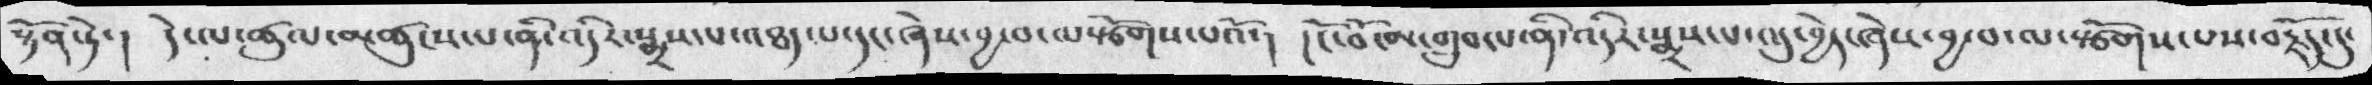སྟོན་ཏེ་། དེ་ལ་ཚུལ་མཚུངས་པ་ནི་འདིར་སྨྲས་པ་འཐད་པ་དང་ཞེས་བྱ་བ་ལསཙོགས་པའོ་།  ། ངོ་བོ་མ་གྲུབ་པ་ནི་འདིར་སྨྲས་པ་འདུ་བྱེད་ཞེས་བྱ་བ་ལ་སྩོགས་པས་བརྗོད་དུ་
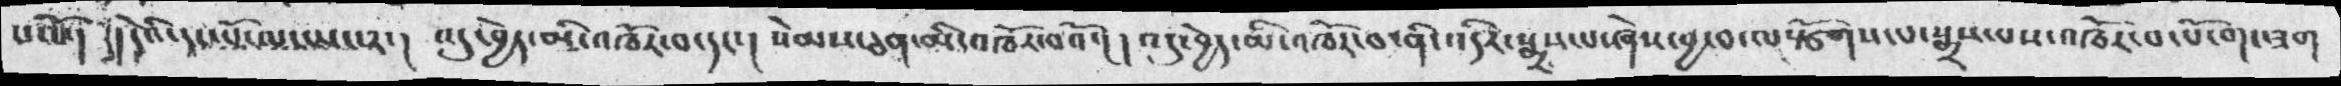པའོ་།  །དེའི་དང་པོ་ལ་ཡང་༢་།  འདུ་བྱེད་མི་འཁོར་བ་དང་།  སེམས་ཅན་མི་འཁོར་བའོ་། ། འདུ་བྱེད་མི་འཁོར་བ་ནི་འདིར་སྨྲས་པ་ཞེས་བྱ་བ་ལསྩོགས་པ་སྨྲས་པས་འཁོར་པ་པོ་གང་ཟག
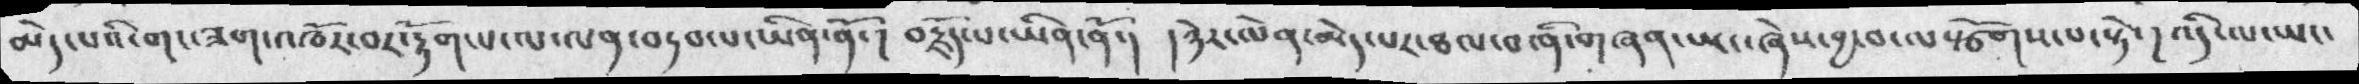མེད་པའི་གང་ཟག་འཁོར་བར་རྟོག་པ་ལ་ལན་བདབ་པ་ཡིན་ནོ་།  བརྗོད་པ་ཡིན་ནོ་།  ། ཉེར་ལེན་མེད་པར་ཐལ་བ་ནི་གཞན་ཡང་ཞེས་བྱ་བ་ལསྩོགས་པ་སྟེ་།  འདི་ལ་ཡང་
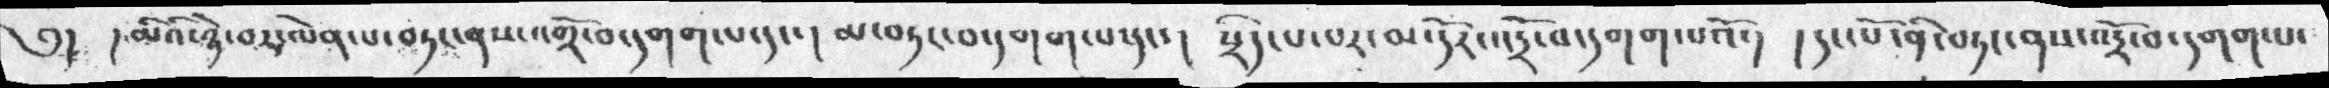༅།  །མིའི་ཉེ་བར་ལེན་པ་བཏང་ནས་འགྲོ་བ་དགག་པ་དང་། མ་བཏང་བ་དགག་པ་དང་། སྲིད་པ་པར་མ་དོར་འདྲོ་བ་དགག་པའོ་།  །དང་པོ་ནི་བཏང་ནས་འདྲོ་བ་དགག་པ་
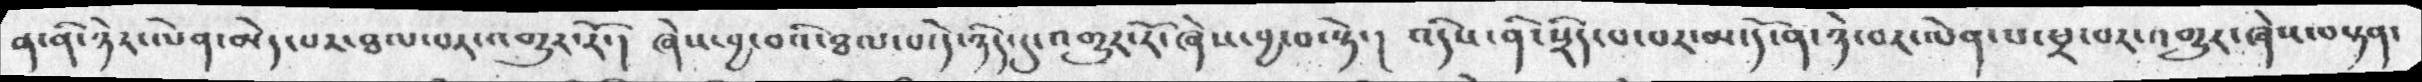ན་ནི་ཉེར་ལེན་མེད་པར་ཐལ་བར་འགྱུར་རོ་།  ཞེས་བྱ་བའི་ཐལ་པ་དེ་ཉིད་དུ་འགྱུར་རོ་ཞེས་བྱ་བ་སྟེ་།  འདིས་ནི་སྲིད་པ་པར་མ་དོ་ན་ཉེ་བར་ལེན་པ་ཕྲ་པར་འགྱུར་ཞེས་བསྟན་
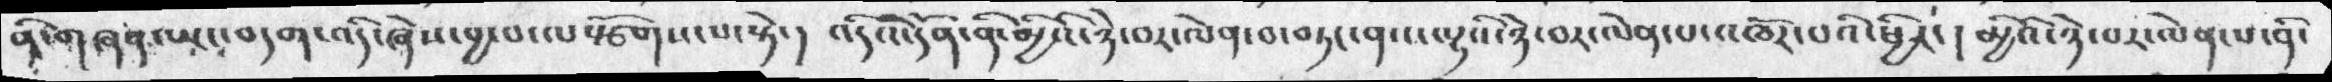ནི་གཞན་ཡང་བདག་འདི་ཞེས་བྱ་བ་ལསྩོགས་པ་སྟེ་།  འདིའི་དོན་ནི་མྱིའི་ཉེ་བར་ལེན་བ་བཏང་ནའ་ལྷའི་ཉེ་བར་ལེན་པ་འཁོར་པའི་ཕྱིར་། མྱིའི་ཉེ་བར་ལེན་པ་ནི་
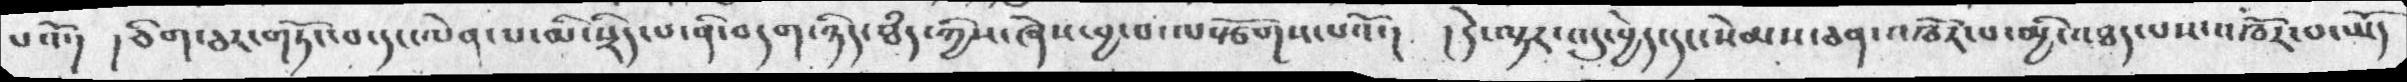པའོ་།  །ཅིག་ཅར་གཏོང་བ་དང་ལེན་པ་མི་སྲིད་པ་ནི་བདག་ཉིད་ཐཾད་ཀྱིས་ཞེས་བྱ་བ་ལསྩོགས་པའོ་།  །དེ་ལྟར་འདུ་བྱེད་དང་སེམས་ཅན་འཁོར་པ་མྱི་འཐད་པས་འཁོར་པ་ཡོད
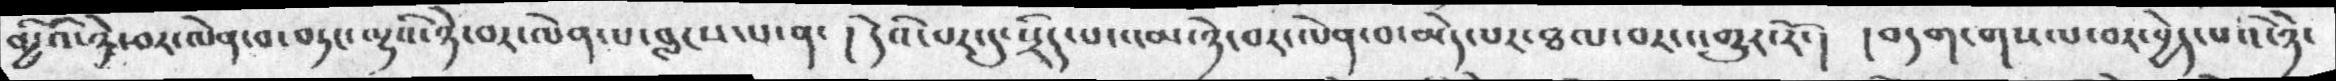མྱིའི་ཉེ་བར་ལེན་པ་བཏང་ལྷའི་ཉེ་བར་ལེན་པ་བླངས་པ་ན་།  དེའི་པར་དུ་སྲིད་པ་འམ་ཉེ་བར་ལེན་པ་མེད་པར་ཐལ་བར་འགྱུར་རོ་།  །བདག་གསལ་བར་བྱེད་པའི་ཉེ་
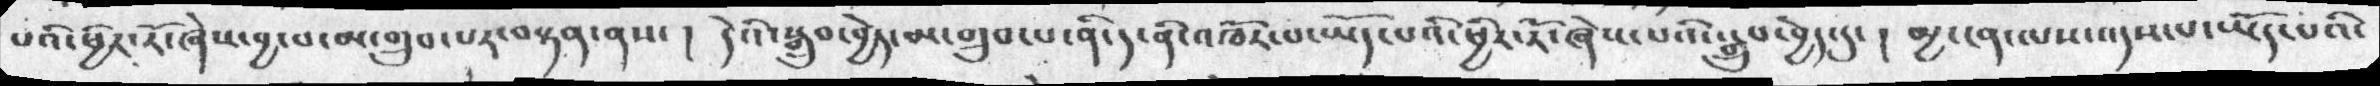པའི་ཕྱིར་རོ་ཞེས་བྱ་པ་མ་གྲུབ་པར་བསྟན་ནས་ ། དེའི་སྒྲུབ་བྱེད་མ་གྲུབ་པ་ནི་ད་ནི་འཁོར་པ་ཡོད་པའི་ཕྱིར་རོ་ཞེས་པའི་སྒྲུབ་བྱེད་དུ་ ། མྱ་ངན་ལས་འདས་པ་ཡོད་པའི་
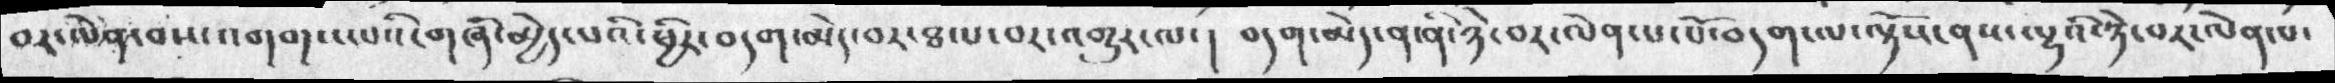བར་ལེན་བས་འགག་པའི་གཞི་མྱེད་པའི་ཕྱིར་བདག་མེད་བར་ཐལ་བར་འགྱུར་ལ་ ། བདག་མེད་ན་ནི་ཉེ་བར་ལེན་པ་པོ་བདག་ལ་ལྟོས་ནས་ལྷའི་ཉེ་བར་ལེན་པ་
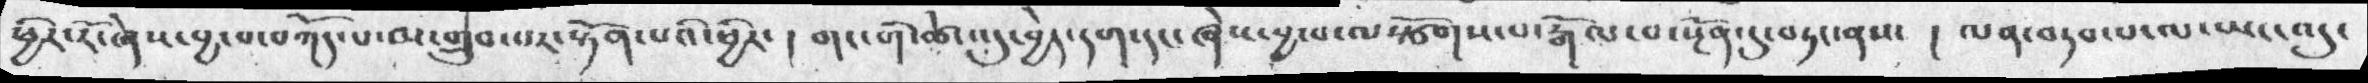ཕྱི་རོ་ཞེས་བྱ་བ་བཀོད་པ་མ་གྲུབ་པར་སྟོན་པའི་ཕྱིར་  ། གང་གི་ཚེ་འདུ་བྱེད་དག་དང་ཞེས་བྱ་བ་ལསྩོགས་པ་རྒོལ་བ་སྔོན་དུ་བཏང་ནས་   ། ལན་བཏབ་པ་ལ་ཡང་འདུ་
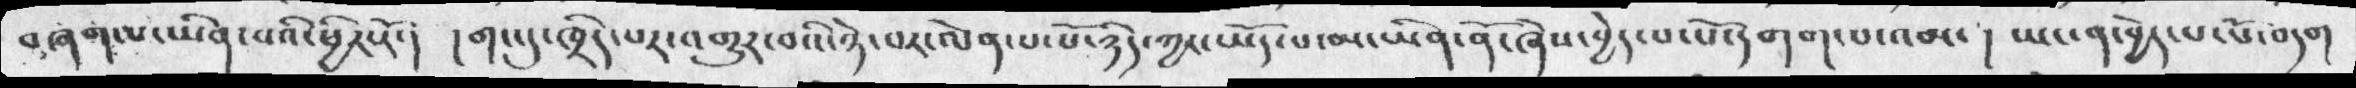བཞག་པ་ཡིན་པའི་ཕྱིར་རོ་།    །གང་དུ་ཁྲིད་པར་འགྱུར་བའི་ཉེས་བར་ལེན་པ་པོ་ཉིད་ཀྱང་ཡོད་པ་མ་ཡིན་ནོ་ཞེས་བྱེད་པ་པོ་དགག་པ་འམ་  །ཡང་ན་བྱེད་པ་པོ་བདག་
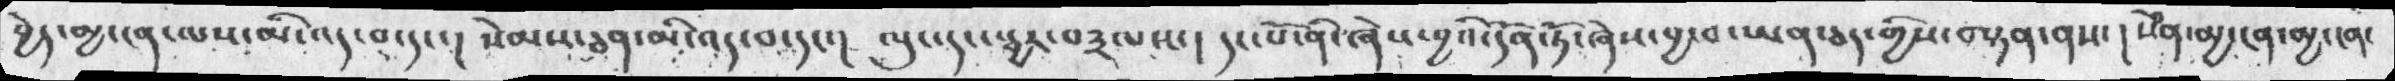བྱེད་མྱ་ངན་ལས་མི་འད་བ་དང་།  སེམས་ཅན་མི་འད་བ་དང་།  ལུང་དང་སྦྱར་བ༣ལས་།   དང་པོ་ནི་ཞེས་བྱའི་དོན་ཏོ་ཞེས་བྱ་བ་ཡན་ཅད་གྱིས་བསྟན་ནས་ ། སེནཾ་མྱ་ངན་མྱ་ངན་
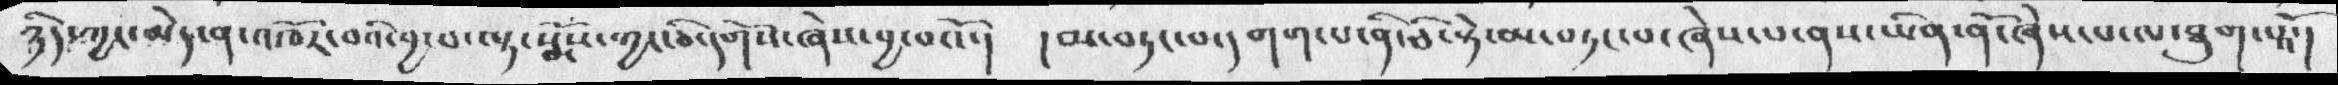ཉིད་ཀྱང་མེད་ན་འཁོར་བའི་བྱ་བ་ལྟ་སྨོས་ཀྱང་ཅི་དགོས་ཞེས་་བྱ་བའོ་།  ། མ་བཏང་པ་དགག་པ་ནི་ཅི་སྟེ་མ་བཏང་པ་ཞེས་པ་ནས་ཡིན་ནོ་ཞེས་པ་ལ་ཐུག་པའོ་།
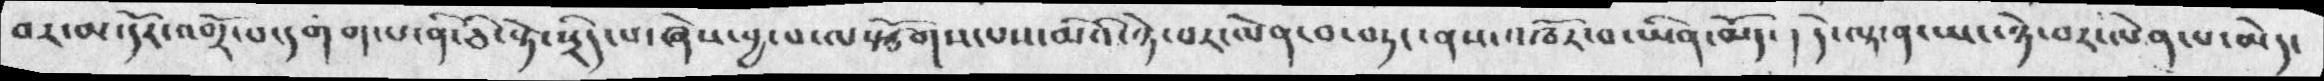བར་མ་དོར་འགྲོ་བ་དགག་པ་ནི་ཅི་སྟེ་སྲིད་པ་ཞེས་བྱ་བ་ལསྩོགས་པས་མིའི་ཉེ་བར་ལེན་བ་བཏང་ནས་འཁོར་བ་ཡིན་མོད་། དེ་ལྟ་ན་ཡང་ཉེ་བར་ལེན་པ་མེད་
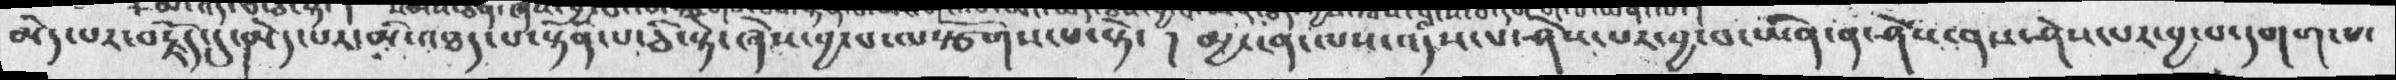མེད་པར་བརྗོད་དུ་མེད་པར་མི་འཐཛ་པ་སྟོན་པ་ཅི་སྟེ་ཞེས་བྱ་བ་ལསྩོགས་པ་སྟེ་ ། མྱ་ངན་ལས་འདས་པ་ཤེས་པར་བྱ་བ་ཡིན་ན་ཤེས་ནས་ཤེས་པར་བྱ་བ་དགག་པ་
